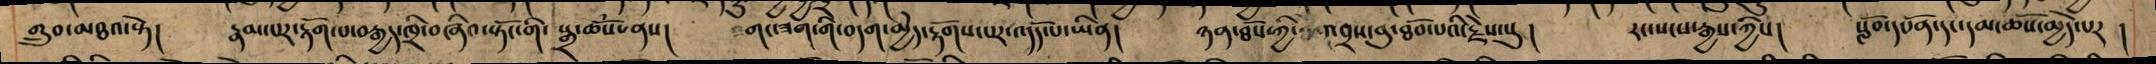གྲུབ་མཐའ་སྟེ། རྣམ་པར་རྟོག་པ་བརྒྱད་ཁྲི་བཞིའ་སྟོང་གི་སྒྲ་ཆོས་ནས། གང་ཟག་གི་བདག་མྱེད་རྟོགས་པར་འདོད་པ་ཡིན། ཉན་ཐོས་ཀྱི་འབྲས་བུ་ཐོབ་པའི་རྗེས་སུ། རང་སངས་རྒྱས་ཀྱིས། སློབ་དཔོན་དང་དམ་ཆོས་མྱེད་པར །
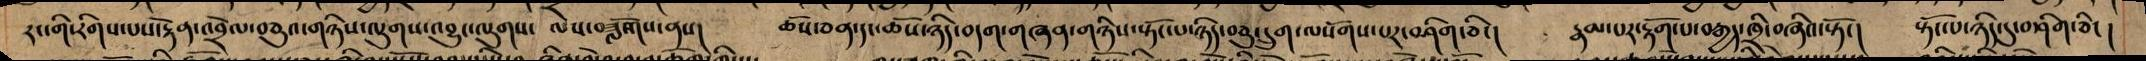རང་གི་རིགས་པས་རྟེན་འབྲེལ་བཅུའ་གཉིས་ལུགས་འབྱུང་ ལས་བཟློགས་ནས། ཆོས་ཅན་དང་ཆོས་ཉིད་བདག་གཞན་གཉིས་སྟོང་པ་ཉིད་བཅུ་དྲུག་ལསོགས་པར་བཤིག་ཅིང། རྣམ་པར་རྟོག་པ་བརྒྱད་ཁྲི་བཞིའ་སྟོང། སྟོང་པ་ཉིད་དུ་བཤིག་ཅིང།
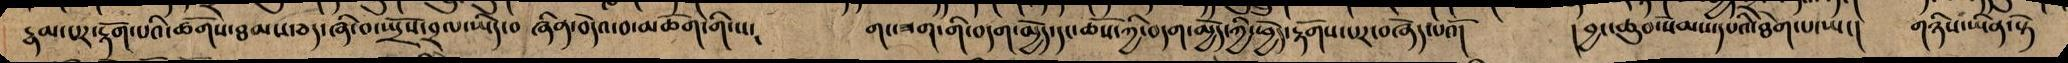རྣམ་པར་རྟོག་པའི་ཚོགས་ཐམས་ཅད་ཞི་བ་སྤྲོས་བྲལ་ཡིད་བཞིན་བདེའ་བ་མཆོག་གི་ས་  གང་ཟག་གི་བདག་མྱེད་དང་ཆོས་ཀྱི་བདག་མྱེད་ཀྱི་ཕྱེད་རྟོགས་པར་བཞེད་པའོ། །བྱང་ཆུབ་སེམས་དཔའི་ཐེག་པ་ཡང། གཉིས་ཡིན་སྟེ
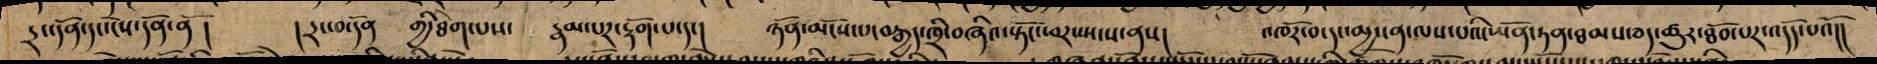དྲང་དོན་དང་ངེས་དོན་ནོ། །དྲང་བ་དོན གྱི་ཐེག་པས་ རྣམ་པར་རྟོག་པ་དང། ཉོན་མོངས་པ་བརྒྱད་ཁྲི་བཞིའ་སྟོང་ཕར་སྤངས་ནས། འཁོར་བ་དང་མྱ་ངན་ལས་པའི་ཡོན་ཏན་ཐམས་ཅད་ཚུར་ཐོབ་པར་འདོད་པའོ།།
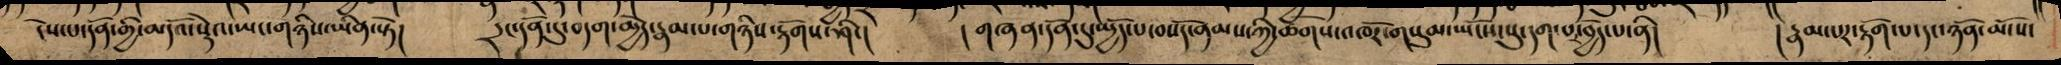ངེས་པ་དོན་གྱི་མདོའ་སྡེའ་ཡང་གཉིས་ཡིན་སྟེ། དྲང་དོན་དུ་བདག་མྱེད་རྣམ་པ་གཉིས་རྟོགས་ཤིང། །གཞན་དོན་དུ་མྱེད་པ་བསོད་ནམས་ཀྱི་ཚོགས་འཁོར་གསུམ་ཡོངས་སུ་དག་པ་བྱེད་པ་ནི། །རྣམ་པར་རྟོག་པ་དང་ཉོན་མོངས་
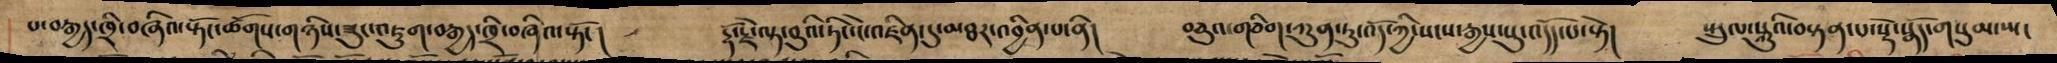པ་བརྒྱད་ཁྲི་བཞིའ་སྟོང་ཚོགས་གཉིས་ཟུང་འཇུག་བརྒྱད་ཁྲི་བཞིའ་སྟོང། རྡོ་རྗེ་ལྟ་བུའི་ཏིང་ངེ་འཛིན་དུ་མཐར་འབྱིན་པ་ནི། བཅུའ་གཅིག་ཀུན་ཏུ་འོད་ཀྱི་སངས་རྒྱས་སུ་འདོད་པ་སྟེ། སྤྲུལ་སྐུའི་བསྟན་པ་སྡེ་སྣོད་གསུམ་ཡང
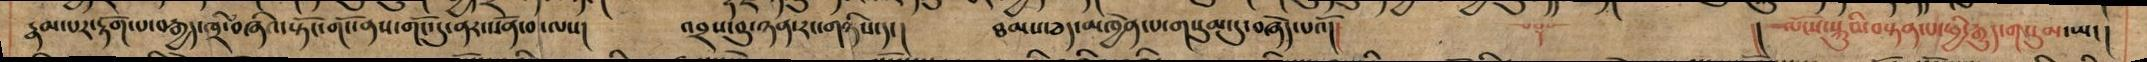རྣམ་པར་རྟོག་པ་བརྒྱད་ཁྲི་བཞི་སྟོང་གོང་ནས་གོང་དུ་ནར་སོན་བ་ལས།   འབྲས་བུ་ཉན་རང་གཉིས་དང།  ཐམས་ཅད་མཁྱེན་པ་གསུམ་དུ་བཞེད་པའོ།།          །། ལོངས་སྐུའི་བསྟན་པ་ཕྱི་རྒྱུད་གསུམ་ཡང།
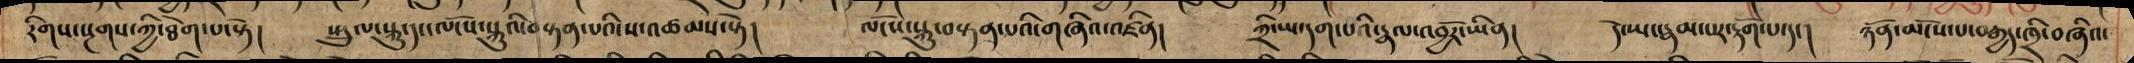རིགས་སྔགས་ཀྱི་ཐེག་པ་སྟེ། སྤྲུལ་སྐུ་དང་ལོངས་སྐུའི་བསྟན་པའི་ས་འཚམས་སྟེ། ལོངས་སྐུ་བསྟན་པའི་གཞིའ་འཛིན། ཀྲི་ཡ་དག་པའི་རྣལ་འབྱོར་ཡིན། དེ་ཡང་རྣམ་པར་རྟོག་པ་དང། ཉོན་མོངས་པ་བརྒྱད་ཁྲི་བཞིའ་
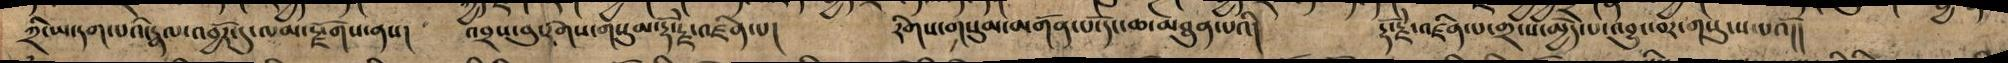ཀྲི་ཡ་དག་པའི་རྣལ་འབྱོར་དུ་ལམ་སྫོགས་ནས། འབྲས་བུ་རིགས་གསུམ་རྡོ་རྗེ་འཛིན་པ། རིག་གསུམ་མགོན་པོ་དང་ཆ་མཐུན་པའི། རྡོ་རྗེ་འཛིན་པ་གྲངས་མྱེད་པ་འབྱུང་བར་གསུངས་པའོ།།
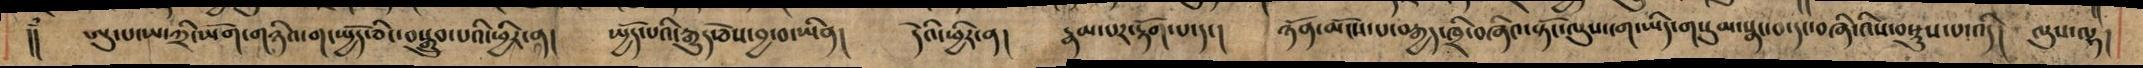།། ཨུ་པ་ཡ་ཀྲི་ཡོག་གཉིའ་ག་སྤྱོད་ཅིང་བསྒྲུབ་པའི་ཕྱིར་ན། སྤྱོད་པའི་རྒྱུད་ཅེས་བྱ་བ་ཡིན། དེའི་ཕྱིར་ན། རྣམ་པར་རྟོག་པ་དང། ཉོན་མོངས་པ་བརྒྱད་ཁྲི་བཞིའ་སྟོང་ལུས་ངག་ཡིད་གསུམ་སྣང་བ་དང་བཞི་འིས་བསྡུས་པ་འདི། ལུས་ལྷ།
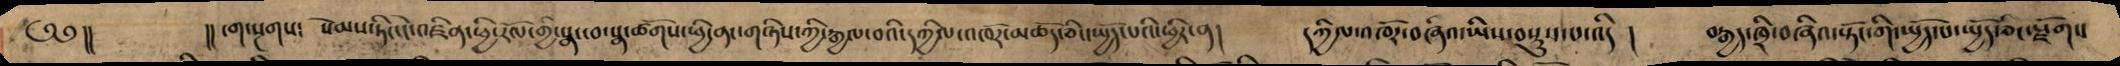༄༅།། །།ངག་སྔགས༴ སེམས་ཏིང་ངེ་འཛིན་ཕྱི་རོལ་གྱི་སྣ་ཚོགས་ཕྱི་ནང་གཉིས་ཀྱི་རྒྱལ་བའི་དཀྱིལ་འཁོར་མཆོད་ཅིང་སྤྱོད་པའི་ཕྱིར་ན། དཀྱིལ་འཁོར་བཞིའ་ཡིས་བསྡུས་པ་འདི ། བརྒྱད་ཁྲི་བཞིའ་སྟོང་གི་སྤྱོད་ཅིང་སྫོགས
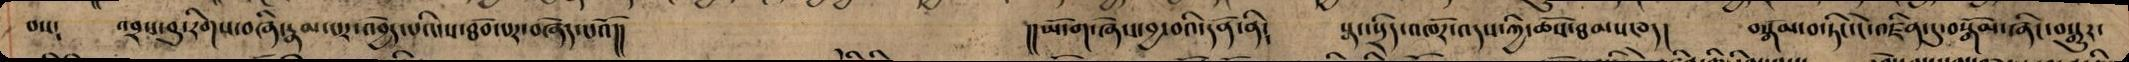པས༴ འབྲས་བུ་རིགས་བཞི་རྣམ་པར་འབྱེད་པའི་ས་ཐོབ་པར་བཞེད་པའོ།། །།ཡོ་ག་ཞེས་བྱ་བའི་དོན་ནི། སྣང་སྲིད་འཁོར་འདས་ཀྱི་ཆོས་ཐམས་ཅད། བསྒོམ་བ་ཏིང་ངེ་འཛིན་དུ་བསྒོམ་ཞིང་བསྒྱུར་
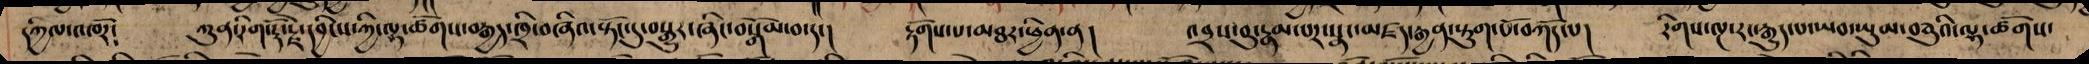དཀྱིལ་འཁོར། ཀུན་རིག་རྡོ་རྗེ་དབྱིངས་ཀྱི་ལྷ་ཚོགས་བརྒྱད་ཁྲི་བཞིའ་སྟོང་དུ་བསྒྱུར་ཞིང་བསྒོམ་བ་དང། རྟོགས་པ་མཐར་ཕྱིན་ན། འབྲས་བུ་རྣམ་པར་སྣང་མཛད་རྒྱན་སྟུག་པོ་བཀོད་པ། རིགས་ལྔ་རང་རྒྱུད་པ་ཡབ་ཡུམ་བཅུའི་ལྷ་ཚོགས་
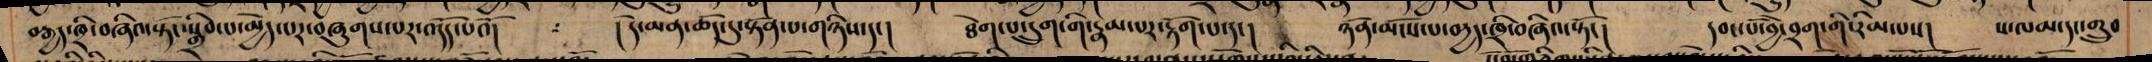བརྒྱད་ཁྲི་བཞིའ་སྟོང་སྒྲིབ་པ་མྱེད་པར་བཞུགས་པར་འདོད་པའོ། །དེ་མན་ཆོད་སྟོན་པ་གཉིས་དང། ཐེག་པ་དྲུག་གི་རྣམ་པར་རྟོག་པ་དང། ཉོན་མོངས་པ་བརྱད་ཁྲི་བཞིའ་སྟོང། དབང་པོ་བྱེ་བྲག་གི་རིམ་པས། ས་ལམ་དང་གྲུབ
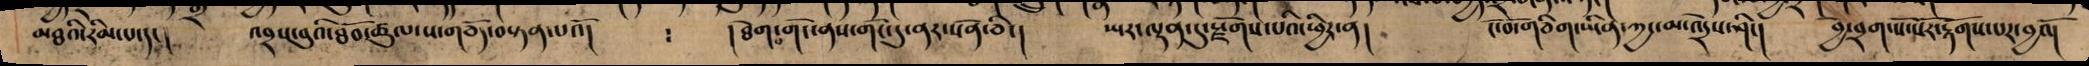མཐའི་རིམ་པ་དང།    འབྲས་བུའི་ཐོབ་ཚུལ་ས་གཅོད་བསྟན་པའོ།    ༴  །ཐེག་པ་གོང་ནས་གོང་དུ་ནར་སོན་ཅིང།   ཡར་ལྡན་དུ་རྫོགས་པའི་ཕྱིར་ན།    ངོ་བོ་གཅིག་ཡིན་ཀྱང་མ་འདྲེས་ཤིང།  བྱེ་བྲག་སོ་སོར་རྟོགས་པར་བྱའོ།
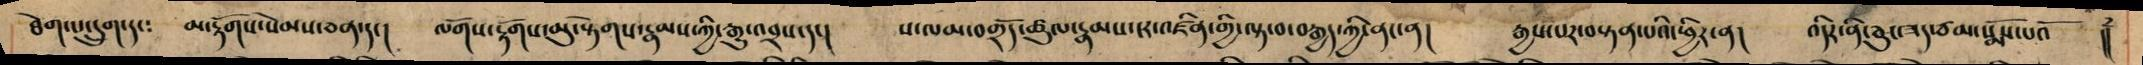ཐེག་པ་དྲུག་དང༴ མ་རྟོགས་སེམས་ཅན་དང། ལོགས་རྟོགས་མུ་སྟེགས་རྣམས་ཀྱི་རྒྱུ་འབྲས་དང། ས་ལམ་བགྲོད་ཚུལ་རྣམས་ངར་འཛིན་གྱི་ལྟ་བ་བརྒྱད་ཀྱི་ནང་ན། རྒྱས་པར་བསྟན་པའི་ཕྱིར་ན། འདིར་ནི་ཅུང་ཟད་ཙམ་སྨོས་པའོ །།
